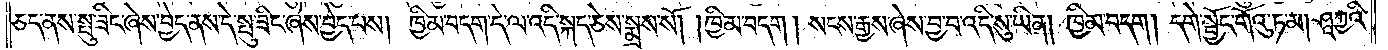ཅད་ནས་སྤུ་ཟིང་ཞེས་བྱེད་ནས་དེ་སྤུ་ཟིང་ཞེས་བྱེད་པས། ཁྱིམ་བདག་དེ་ལ་འདི་སྐད་ཅེས་སྨྲས་སོ། །ཁྱིམ་བདག །སངས་རྒྱས་ཞེས་བྱ་བ་འདི་སུ་ཡིན། ཁྱིམ་བདག། དགེ་སྦྱོང་གོའུ་ཏ་མ། ཤཱཀྱའི་
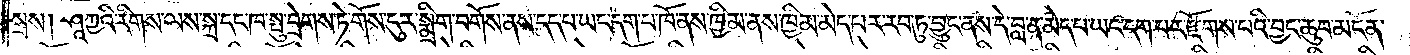སྲས། ཤཱཀྱའི་རིགས་ལས་སྐྲ་དང་ཁ་སྤུ་བྲེགས་ཏེ་གོས་ངུར་སྨྲིག་བགོས་ནས་དད་པ་ཡང་དག་པ་ཁོ་ནས་ཁྱིམ་ནས་ཁྱིམ་མེད་པར་རབ་ཏུ་བྱུང་ནས་དེ་བླ་ན་མེད་པ་ཡང་དག་པར་རྫོགས་པའི་བྱང་ཆུབ་མངོན་
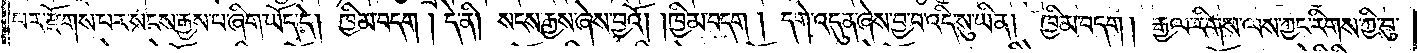པར་རྫོགས་པར་སངས་རྒྱས་པ་ཞིག་ཡོད་དེ། ཁྱིམ་བདག། དེ་ནི། སངས་རྒྱས་ཞེས་བྱའོ། །ཁྱིམ་བདག། དགེ་འདུན་ཞེས་བྱ་བ་འདི་སུ་ཡིན། ཁྱིམ་བདག། རྒྱལ་རིགས་ལས་ཀྱང་རིགས་ཀྱི་བུ་
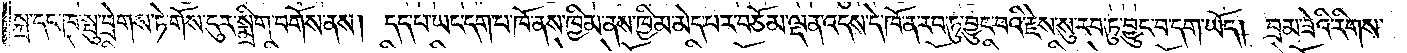སྐྲ་དང་ཁ་སྤུ་བྲེགས་ཏེ་གོས་ངུར་སྨྲིག་བགོས་ནས། དད་པ་ཡང་དག་པ་ཁོ་ནས་ཁྱིམ་ནས་ཁྱིམ་མེད་པར་བཅོམ་ལྡན་འདས་དེ་ཁོ་ན་རབ་ཏུ་བྱུང་བའི་རྗེས་སུ་རབ་ཏུ་བྱུང་བ་དག་ཡོད། བྲམ་ཟེའི་རིགས་
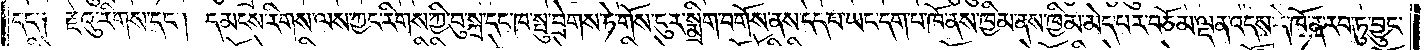དང༌། རྗེའུ་རིགས་དང༌། དམངས་རིགས་ལས་ཀྱང་རིགས་ཀྱི་བུ་སྐྲ་དང་ཁ་སྤུ་བྲེགས་ཏེ་གོས་ངུར་སྨྲིག་བགོས་ནས་དད་པ་ཡང་དག་པ་ཁོ་ནས་ཁྱིམ་ནས་ཁྱིམ་མེད་པར་བཅོམ་ལྡན་འདས་དེ་ཁོ་ན་རབ་ཏུ་བྱུང་
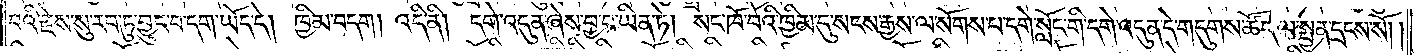བའི་རྗེས་སུ་རབ་ཏུ་བྱུང་བ་དག་ཡོད་དེ། ཁྱིམ་བདག། འདི་ནི། དགེ་འདུན་ཞེས་བྱ་བ་ཡིན་ཏེ། སང་ཁོ་བོའི་ཁྱིམ་དུ་སངས་རྒྱས་ལ་སོགས་པ་དགེ་སློང་གི་དགེ་འདུན་དེ་གདུགས་ཚོད་ལ་སྤྱན་དྲངས་སོ། །
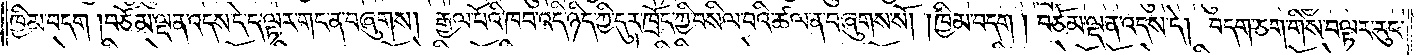ཁྱིམ་བདག །བཅོམ་ལྡན་འདས་དེ་ད་ལྟར་གང་ན་བཞུགས། རྒྱལ་པོའི་ཁབ་འདི་ཉིད་ཀྱི་དུར་ཁྲོད་ཀྱི་བསིལ་བའི་ཚལ་ན་བཞུགས་སོ། །ཁྱིམ་བདག། བཅོམ་ལྡན་འདས་དེ། བདག་ཅག་གིས་བལྟར་རུང་
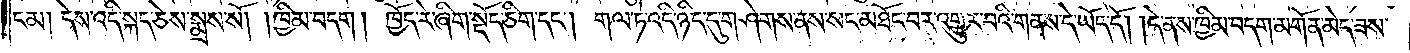ངམ། དེས་འདི་སྐད་ཅེས་སྨྲས་སོ། །ཁྱིམ་བདག། ཁྱོད་རེ་ཞིག་སྡོད་ཅིག་དང༌། གལ་ཏེ་འདི་ཉིད་དུ་གཤེགས་ནས་སང་མཐོང་བར་འགྱུར་བའི་གནས་དེ་ཡོད་དོ། །དེ་ནས་ཁྱིམ་བདག་མགོན་མེད་ཟས་
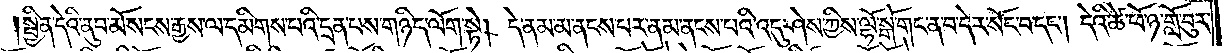སྦྱིན་དེའི་ནུབ་མོ་སངས་རྒྱས་ལ་དམིགས་པའི་དྲན་པས་གཉིད་ལོག་སྟེ། དེ་ནམ་མ་ནངས་པར་ནམ་ནངས་པའི་འདུ་ཤེས་ཀྱིས་ལྷོ་སྒོ་གང་ན་བ་དེར་སོང་བ་དང༌། དེའི་ཚེ་ཕོ་ཉ་གློ་བུར་
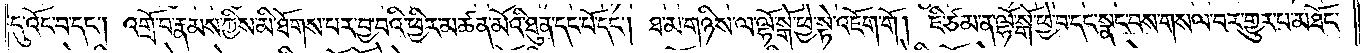དུ་འོང་བ་དང༌། འགྲོ་བ་རྣམས་ཀྱིས་མི་ཐོགས་པར་བྱ་བའི་ཕྱིར་མཚན་མོའི་ཐུན་དང་པོ་དང༌། ཐ་མ་གཉིས་ལ་ལྷོ་སྒོ་ཕྱེ་སྟེ་འཇོག་གོ། ཇི་ཙམ་ན་ལྷོ་སྒོ་ཕྱེ་བ་དང་སྣང་བས་གསལ་བར་གྱུར་པ་མཐོང་
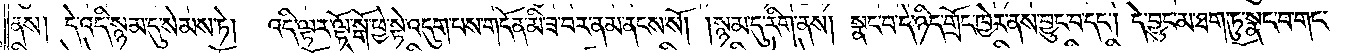ནས། དེ་འདི་སྙམ་དུ་སེམས་ཏེ། འདི་ལྟར་ལྷོ་སྒོ་ཕྱེ་སྟེ་འདུག་པས་གདོན་མི་ཟ་བར་ནམ་ནངས་སོ། །སྙམ་དུ་རིག་ནས། སྣང་བ་དེ་ཉིད་གྲོང་ཁྱེར་ནས་བྱུང་བ་དང༌། དེ་བྱུང་མ་ཐག་ཏུ་སྣང་བ་གང་
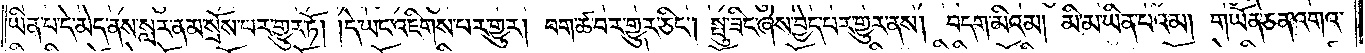ཡིན་པ་དེ་མེད་ནས་སླར་ནམ་སྲོས་པར་གྱུར་ཏོ། །དེ་ཡང་འཇིགས་པར་གྱུར། བག་ཚ་བར་གྱུར་ཅིང༌། སྤུ་ཟིང་ཞེས་བྱེད་པར་གྱུར་ནས། བདག་མིའམ། མི་མ་ཡིན་པའམ། གཡོན་ཅན་འགའ་
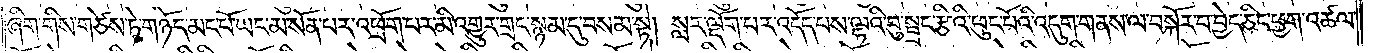ཞིག་གིས་གཙེས་ཏེ་གཉོད་མང་པོ་ཡང་མ་སོན་པར་འཕྲོག་པར་མི་འགྱུར་གྲང་སྙམ་དུ་བསམ་སྟེ། སླར་ལྡོག་པར་འདོད་པས་ལྷའི་བུ་སྦྲང་རྩིའི་ཕུང་པོའི་འདུག་གནས་ལ་བསྐོར་བ་བྱེད་ཅིང་ཕྱག་འཚལ་
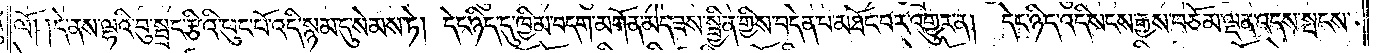ལོ། །དེ་ནས་ལྷའི་བུ་སྦྲང་རྩིའི་ཕུང་པོ་འདི་སྙམ་དུ་སེམས་ཏེ། དེང་ཉིད་དུ་ཁྱིམ་བདག་མགོན་མེད་ཟས་སྦྱིན་གྱིས་བདེན་པ་མཐོང་བར་འགྱུར་ན། དེང་ཉིད་འདི་སངས་རྒྱས་བཅོམ་ལྡན་འདས་སྤངས་
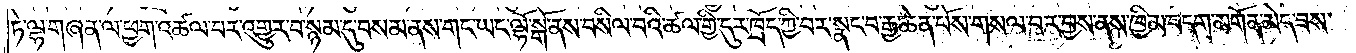ཏེ་ལྷ་གཞན་ལ་ཕྱག་འཚལ་བར་འགྱུར་བ་སྙམ་དུ་བསམ་ནས་གང་ཡང་ལྷོ་སྒོ་ནས་བསིལ་བའི་ཚལ་གྱི་དུར་ཁྲོད་ཀྱི་བར་སྣང་བ་རྒྱ་ཆེན་པོས་གསལ་བར་བྱས་ནས་ཁྱིམ་བདག་མགོན་མེད་ཟས་
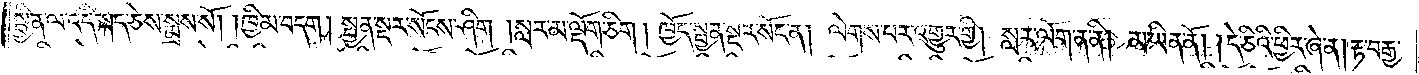སྦྱིན་ལ་འདི་སྐད་ཅེས་སྨྲས་སོ། །ཁྱིམ་བདག། སྤྱན་སྔར་སོངས་ཤིག། སླར་མ་ལྡོག་ཅིག །ཁྱོད་སྤྱན་སྔར་སོང་ན། ལེགས་པར་འགྱུར་གྱི། སླར་ལོག་ན་ནི། མ་ཡིན་ནོ། །དེ་ཅིའི་ཕྱིར་ཞེ་ན། རྟ་བརྒྱ་
